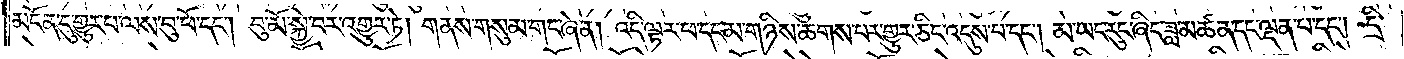མངོན་དུ་གྱུར་པ་ལས་བུ་ཕོ་དང༌། བུ་མོ་སྐྱེ་བར་འགྱུར་ཏེ། གནས་གསུམ་གང་ཞེ་ན། འདི་ལྟར་ཕ་དང་མ་གཉིས་ཆགས་པར་གྱུར་ཅིང་འདུས་པ་དང༌། མ་ཡང་རུང་ཞིང་ཟླ་མཚན་དང་ལྡན་པ་དང༌། དྲི་
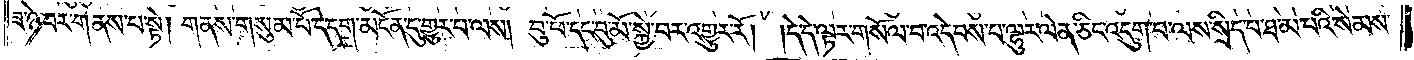ཟ་ཉེ་བར་གནས་པ་སྟེ། གནས་གསུམ་པོ་དེ་དག་མངོན་དུ་གྱུར་པ་ལས། བུ་ཕོ་དང་བུ་མོ་སྐྱེ་བར་འགྱུར་རོ། །དེ་དེ་ལྟར་གསོལ་བ་འདེབས་པ་ལྷུར་ལེན་ཅིང་འདུག་པ་ལས་སྲིད་པ་ཐ་མ་པའི་སེམས་
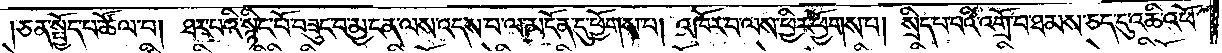ཅན་སྤྱོད་པ་ཚོལ་བ། ཐར་པའི་སྙིང་པོ་བཟུང་བ་མྱ་ངན་ལས་འདས་པ་ལ་མངོན་དུ་ཕྱོགས་པ། འཁོར་བ་ལས་ཕྱིར་ཕྱོགས་པ། སྲིད་པ་བའི་འགྲོ་བ་ཐམས་ཅད་དུ་འཆི་འཕོ་
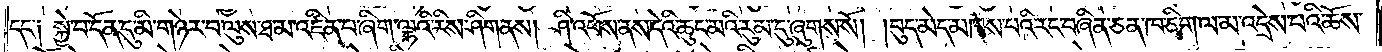དང་༑  སྐྱེ་བ་དོན་དུ་མི་གཉེར་བ་ལུས་ཐ་མ་འཛིན་པ་ཞིག་ལྷའི་རིས་ཤིག་ནས། ཤི་འཕོས་ནས་དེའི་ཆུང་མའི་རུམ་དུ་ཞུགས་སོ། །བུད་མེད་མཁས་པའི་རང་བཞིན་ཅན་ཁ་ཅིག་ལམ་འདྲེས་པའི་ཆོས་
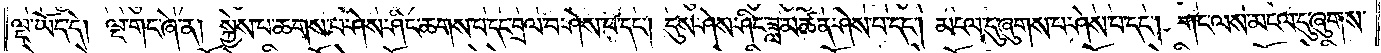ལྔ་ཡོད་དེ། ལྔ་གང་ཞེ་ན། སྐྱེས་པ་ཆགས་པ་ཤེས་ཤིང་ཆགས་པ་དང་བྲལ་བ་ཤེས་པ་དང༌། དུས་ཤེས་ཤིང་ཟླ་མཚན་ཤེས་པ་དང༌། མངལ་དུ་ཞུགས་པ་ཤེས་པ་དང༌། གང་ལས་མངལ་དུ་ཞུགས་
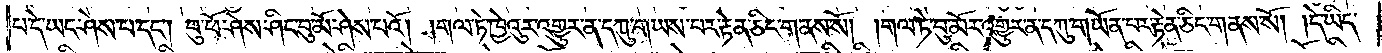པ་དེ་ཡང་ཤེས་པ་དང༌། བུ་ཕོ་ཤེས་ཤིང་བུ་མོ་ཤེས་པའོ། །གལ་ཏེ་ཁྱེའུར་འགྱུར་ན་དཀུ་གཡས་པར་རྟེན་ཅིང་གནས་སོ། །གལ་ཏེ་བུ་མོར་འགྱུར་ན་དཀུ་གཡོན་པར་རྟེན་ཅིང་གནས་སོ། །དེ་ཡིད་
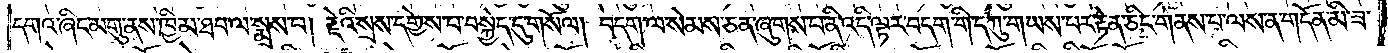དགའ་ཞིང་མགུ་ནས་ཁྱིམ་ཐབ་ལ་སྨྲས་པ། རྗེའི་སྲས་དགྱེས་པ་བསྐྱེད་དུ་གསོལ། བདག་ལ་སེམས་ཅན་ཞུགས་པ་ནི་འདི་ལྟར་བདག་གི་དཀུ་གཡས་པར་རྟེན་ཅིང་གནས་པ་ལས་ན་གདོན་མི་ཟ་
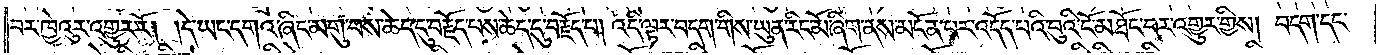བར་ཁྱེའུར་འགྱུར་རོ། །དེ་ཡང་དགའ་ཞིང་མགུ་བས་ཆེད་དུ་བརྗོད་པས་ཆེད་དུ་བརྗོད་པ། འདི་ལྟར་བདག་གིས་ཡུན་རིང་མོ་ཞིག་ནས་མངོན་པར་འདོད་པའི་བུའི་ངོ་མཐོང་བར་འགྱུར་གྱིས། བདག་དང་
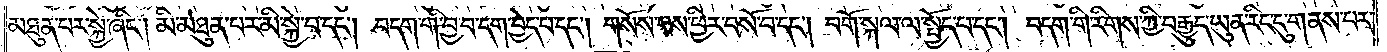མཐུན་པར་སྐྱེ་ཞིང༌། མི་མཐུན་པར་མི་སྐྱེ་བ་དང༌། བདག་གི་བྱ་བ་དག་བྱེད་པ་དང༌། གསོས་པས་ཕྱིར་བསོ་བ་དང༌། བགོ་སྐལ་ལ་སྤྱོད་པ་དང༌། བདག་གི་རིགས་ཀྱི་བརྒྱུད་ཡུན་རིང་དུ་གནས་པར་
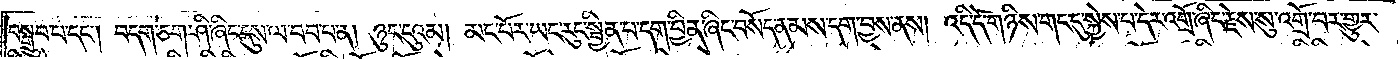བསྒྲུབ་པ་དང༌། བདག་ཅག་ཤི་ཞིང་དུས་ལ་བབ་པ་ན། ཉུང་དུའམ། མང་པོར་ཡང་རུང་སྦྱིན་པ་དག་བྱིན་ཞིང་བསོད་ནམས་དག་བྱས་ནས། འདི་དེ་གཉིས་གང་དུ་སྐྱེས་པ་དེར་འགྲོ་ཞིང་རྗེས་སུ་འགྲོ་བར་གྱུར་
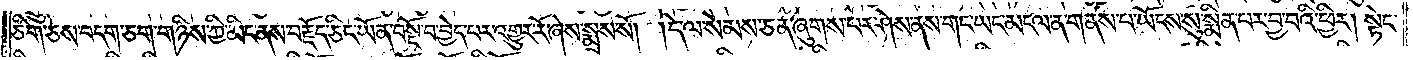ཅིག་ཅེས་བདག་ཅག་གཉིས་ཀྱི་མིང་ནས་བརྗོད་ཅིང་ཡོན་བསྔོ་བ་བྱེད་པར་འགྱུར་རོ་ཞེས་སྨྲས་སོ། །དེ་ལ་སེམས་ཅན་ཞུགས་པར་ཤེས་ནས་གང་ཡང་མངལ་ན་གནས་པ་ཡོངས་སུ་སྨིན་པར་བྱ་བའི་ཕྱིར། སྟེང་
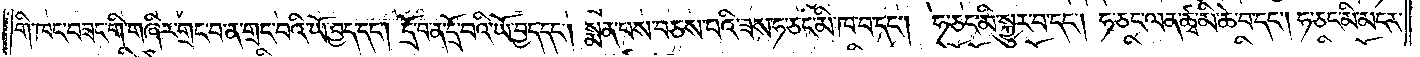གི་ཁང་བཟང་གི་གཞིར་གྲང་བ་ན་གྲང་བའི་ཡོ་བྱད་དང༌། དྲོ་བ་ན་དྲོ་བའི་ཡོ་བྱད་དང༌། སྨན་པས་བཅས་པའི་ཟས་ཧ་ཅང་མི་ཁ་བ་དང༌། ཧ་ཅང་མི་སྐྱུར་བ་དང༌། ཧ་ཅང་ལན་ཚྭ་མི་ཆེ་བ་དང༌། ཧ་ཅང་མི་མངར་
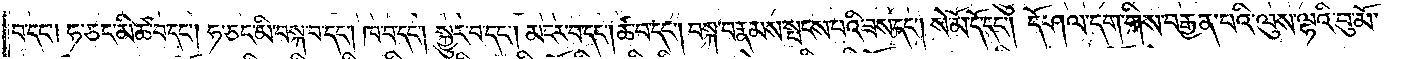བ་དང༌། ཧ་ཅང་མི་ཚ་བ་དང༌། ཧ་ཅང་མི་བསྐ་བ་དང༌། ཁ་བ་དང༌། སྐྱུར་བ་དང༌། མངར་བ་དང༌། ཚ་བ་དང༌། བསྐ་བ་རྣམས་སྤངས་པའི་ཟས་དང༌། སེ་མོ་དོ་དང༌། དོ་ཤལ་དག་གིས་བརྒྱན་པའི་ལུས་ལྷའི་བུ་མོ་
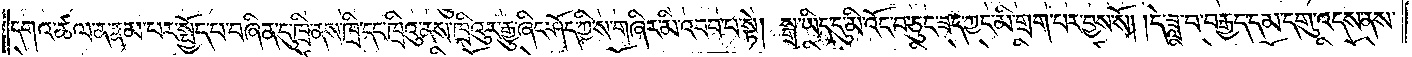དགའ་ཚལ་ན་རྣམ་པར་སྤྱོད་པ་བཞིན་དུ་ཁྲི་ནས་ཁྲི་དང་ཁྲིའུ་ནས་ཁྲིའུར་རྒྱུ་ཞིང་ཤོད་ཀྱི་ས་གཞིར་མི་འབབ་པ་སྟེ། སྒྲ་ཡིད་དུ་མི་འོང་བ་ཅུང་ཟད་ཀྱང་མི་གྲག་པར་བྱས་སོ། །དེ་ཟླ་བ་བརྒྱད་དམ་དགུ་འདས་ནས་
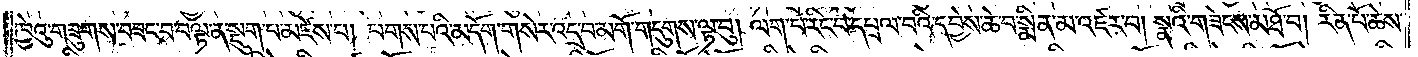ཁྱེའུ་གཟུགས་བཟང་བ་བལྟ་ན་སྡུག་པ་མཛེས་པ། པགས་པའི་མདོག་གསེར་འདྲ་བ་མགོ་གདུགས་ལྟ་བུ། ལག་པ་རིང་བ་དཔྲལ་བའི་དབྱེས་ཆེ་བ་སྨིན་མ་འཛར་བ། སྣའི་གཟེངས་མཐོ་བ། རིན་པོ་ཆེས་
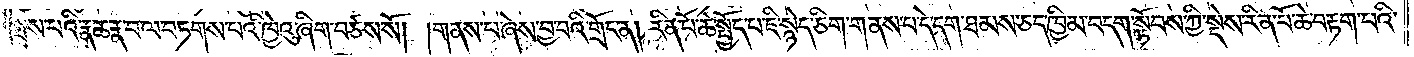སྤྲས་པའི་རྣ་ཆ་རྣ་བ་ལ་བཏགས་པའི་ཁྱེའུ་ཞིག་བཙས་སོ། །གནས་པ་ཞེས་བྱ་བའི་གྲོང་ན། རིན་པོ་ཆེ་སྤྱོད་བ་ཇི་སྙེད་ཅིག་གནས་པ་དེ་དག་ཐམས་ཅད་ཁྱིམ་བདག་སྟོབས་ཀྱི་སྡེས་རིན་པོ་ཆེ་བརྟག་པའི་
